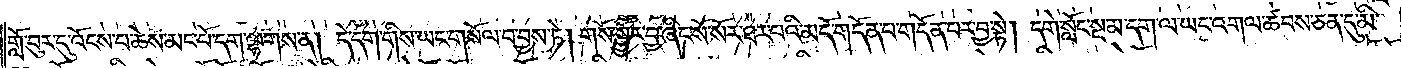གློ་བུར་དུ་འོངས་པ་ཆེས་མང་པོ་དག་ལྷགས་ན། དེ་དག་གིས་ཡང་གསོལ་བ་བྱས་ཏེ། གསོ་སྦྱོང་བྱ་ཞིང་སོ་སོར་ཐར་པའི་མདོ་གདོན་པ་གདོན་བར་བྱ་སྟེ། དགེ་སློང་སྔ་མ་དག་ལ་ཡང་འགལ་ཚབས་ཅན་དུ་མི་
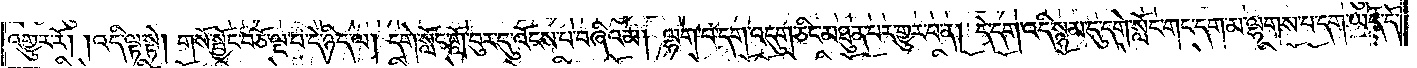འགྱུར་རོ། །འདི་ལྟ་སྟེ། གསོ་སྦྱོང་བཅོ་ལྔ་བ་དེ་ཉིད་ལ། དགེ་སློང་གློ་བུར་དུ་འོངས་པ་བཞིའམ། ལྷག་པ་དག་འདུག་ཅིང་མཐུན་པར་གྱུར་པ་ན། དེ་དག་འདི་སྙམ་དུ་དགེ་སློང་གང་དག་མ་ལྷགས་པ་དག་ཡོད་དོ་
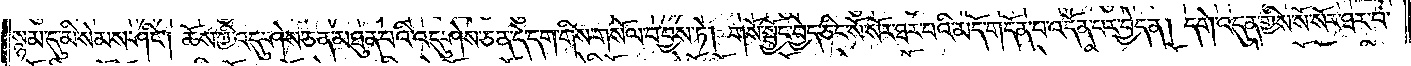སྙམ་དུ་མི་སེམས་ཤིང༌། ཆོས་ཀྱི་འདུ་ཤེས་ཅན་མཐུན་པའི་འདུ་ཤེས་ཅན་དེ་དག་གིས་གསོལ་བ་བྱས་ཏེ། གསོ་སྦྱོང་བྱེད་ཅིང་སོ་སོར་ཐར་པའི་མདོ་གདོན་པ་འདོན་པར་བྱེད་ན། དགེ་འདུན་གྱིས་སོ་སོར་ཐར་པ་
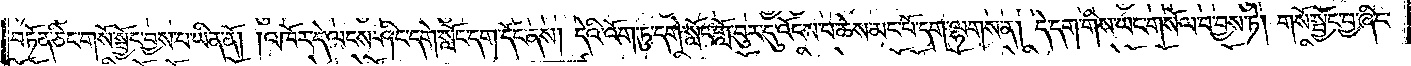བཏོན་ཅིང་གསོ་སྦྱོང་བྱས་པ་ཡིན་ནོ། །འཁོར་དེ་ལངས་ཤིང་དགེ་སློང་དག་དོང་ནས། དེའི་འོག་ཏུ་དགེ་སློང་གློ་བུར་དུ་འོངས་པ་ཆེས་མང་པོ་དག་ལྷགས་ན། དེ་དག་གིས་ཡང་གསོལ་བ་བྱས་ཏེ། གསོ་སྦྱོང་བྱ་ཞིང་
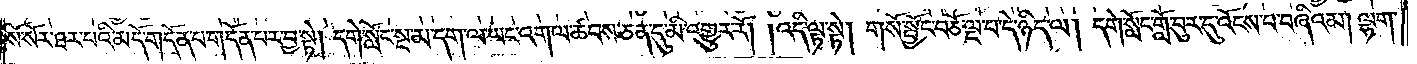སོ་སོར་ཐར་པའི་མདོ་གདོན་པ་གདོན་པར་བྱ་སྟེ། དགེ་སློང་སྔ་མ་དག་ལ་ཡང་འགལ་ཚབས་ཅན་དུ་མི་འགྱུར་རོ། །འདི་ལྟ་སྟེ། གསོ་སྦྱོང་བཅོ་ལྔ་པ་དེ་ཉིད་ལ། དགེ་སློང་གློ་བུར་དུ་འོངས་པ་བཞིའམ། ལྷག་
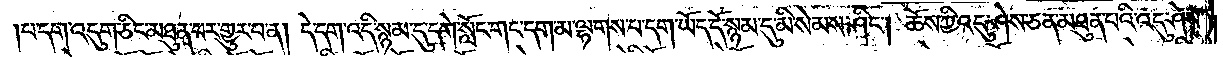པ་དག་འདུག་ཅིང་མཐུན་པར་གྱུར་པ་ན། དེ་དག་འདི་སྙམ་དུ་དགེ་སློང་གང་དག་མ་ལྷགས་པ་དག་ཡོད་དོ་སྙམ་དུ་མི་སེམས་ཤིང༌། ཆོས་ཀྱི་འདུ་ཤེས་ཅན་མཐུན་པའི་འདུ་ཤེས
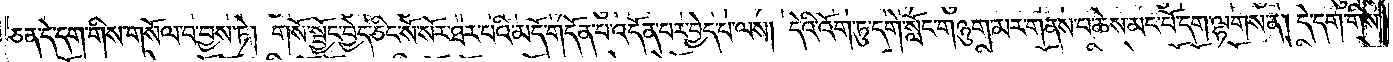ཅན་དེ་དག་གིས་གསོལ་བ་བྱས་ཏེ། གསོ་སྦྱོང་བྱེད་ཅིང་སོ་སོར་ཐར་པའི་མདོ་གདོན་པ་འདོན་པར་བྱེད་པ་ལས། དེའི་འོག་ཏུ་དགེ་སློང་གཉུག་མར་གནས་པ་ཆེས་མང་པོ་དག་ལྷགས་ན། དེ་དག་གིས་
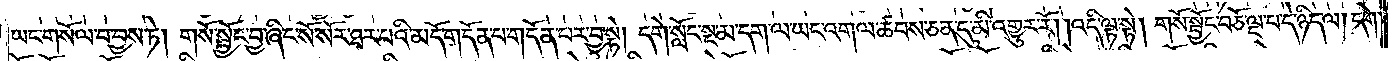ཡང་གསོལ་བ་བྱས་ཏེ། གསོ་སྦྱོང་བྱ་ཞིང་སོ་སོར་ཐར་པའི་མདོ་གདོན་པ་གདོན་པར་བྱ་སྟེ། དགེ་སློང་སྔ་མ་དག་ལ་ཡང་འགལ་ཚབས་ཅན་དུ་མི་འགྱུར་རོ། །འདི་ལྟ་སྟེ། གསོ་སྦྱོང་བཅོ་ལྔ་པ་དེ་ཉིད་ལ། དགེ་
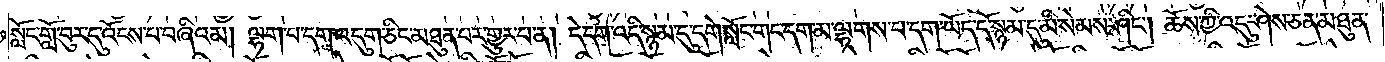སློང་གློ་བུར་དུ་འོངས་པ་བཞིའམ། ལྷག་པ་དག་འདུག་ཅིང་མཐུན་པར་གྱུར་པ་ན། དེ་དག་འདི་སྙམ་དུ་དགེ་སློང་གང་དག་མ་ལྷགས་པ་དག་ཡོད་དོ་སྙམ་དུ་མི་སེམས་ཤིང༌། ཆོས་ཀྱི་འདུ་ཤེས་ཅན་མཐུན་
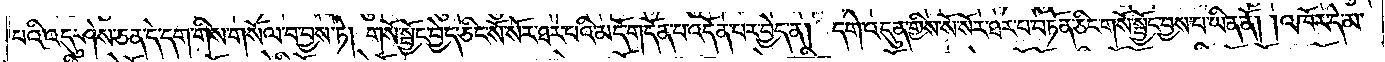པའི་འདུ་ཤེས་ཅན་དེ་དག་གིས་གསོལ་བ་བྱས་ཏེ། གསོ་སྦྱོང་བྱེད་ཅིང་སོ་སོར་ཐར་པའི་མདོ་གདོན་པ་འདོན་པར་བྱེད་ན། དགེ་འདུན་གྱིས་སོ་སོར་ཐར་པ་བཏོན་ཅིང་གསོ་སྦྱོང་བྱས་པ་ཡིན་ནོ། །འཁོར་དེ་མ་
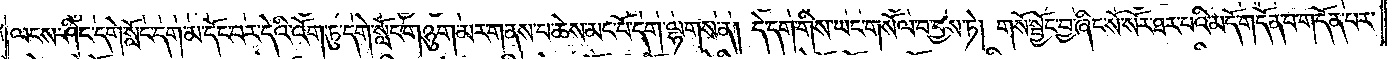ལངས་ཤིང་དགེ་སློང་དག་མ་དོང་བར་དེའི་འོག་ཏུ་དགེ་སློང་གཉུག་མར་གནས་པ་ཆེས་མང་པོ་དག་ལྷགས་ན། དེ་དག་གིས་ཡང་གསོལ་བ་བྱས་ཏེ། གསོ་སྦྱོང་བྱ་ཞིང་སོ་སོར་ཐར་པའི་མདོ་གདོན་པ་གདོན་པར་
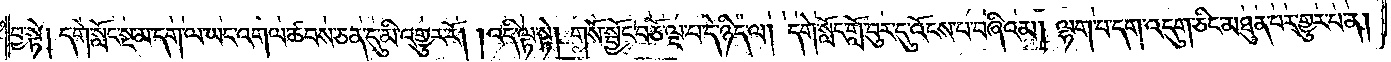བྱ་སྟེ། དགེ་སློང་སྔ་མ་དག་ལ་ཡང་འགལ་ཚབས་ཅན་དུ་མི་འགྱུར་རོ། །འདི་ལྟ་སྟེ། གསོ་སྦྱོང་བཅོ་ལྔ་པ་དེ་ཉིད་ལ། དགེ་སློང་གློ་བུར་དུ་འོངས་པ་བཞིའམ། ལྷག་པ་དག་འདུག་ཅིང་མཐུན་པར་གྱུར་པ་ན།
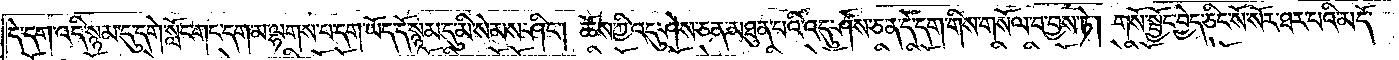དེ་དག་འདི་སྙམ་དུ་དགེ་སློང་གང་དག་མ་ལྷགས་པ་དག་ཡོད་དོ་སྙམ་དུ་མི་སེམས་ཤིང༌། ཆོས་ཀྱི་འདུ་ཤེས་ཅན་མཐུན་པའི་འདུ་ཤེས་ཅན་དེ་དག་གིས་གསོལ་བ་བྱས་ཏེ། གསོ་སྦྱོང་བྱེད་ཅིང་སོ་སོར་ཐར་པའི་མདོ་
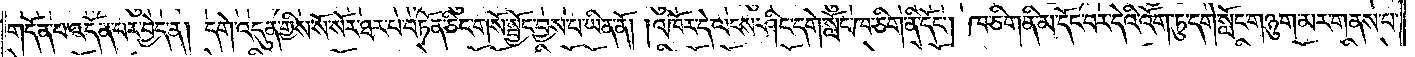གདོན་པ་འདོན་པར་བྱེད་ན། དགེ་འདུན་གྱིས་སོ་སོར་ཐར་པ་བཏོན་ཅིང་གསོ་སྦྱོང་བྱས་པ་ཡིན་ནོ། །འཁོར་དེ་ལངས་ཤིང་དགེ་སློང་ཁ་ཅིག་ནི་དོང༌། ཁ་ཅིག་ནི་མ་དོང་བར་དེའི་འོག་ཏུ་དགེ་སློང་གཉུག་མར་གནས་པ་
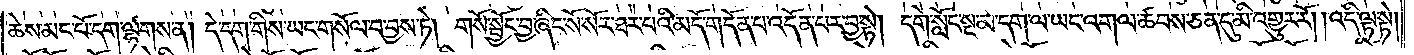ཆེས་མང་པོ་དག་ལྷགས་ན། དེ་དག་གིས་ཡང་གསོལ་བ་བྱས་ཏེ། གསོ་སྦྱོང་བྱ་ཞིང་སོ་སོར་ཐར་པའི་མདོ་གདོན་པ་འདོན་པར་བྱ་སྟེ། དགེ་སློང་སྔ་མ་དག་ལ་ཡང་འགལ་ཚབས་ཅན་དུ་མི་འགྱུར་རོ། །འདི་ལྟ་སྟེ།
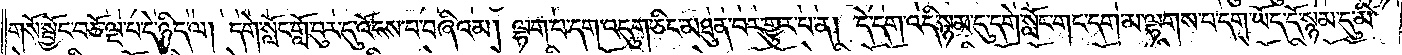གསོ་སྦྱོང་བཅོ་ལྔ་པ་དེ་ཉིད་ལ། དགེ་སློང་གློ་བུར་དུ་འོངས་པ་བཞིའམ། ལྷག་པ་དག་འདུག་ཅིང་མཐུན་པར་གྱུར་པ་ན། དེ་དག་འདི་སྙམ་དུ་དགེ་སློང་གང་དག་མ་ལྷགས་པ་དག་ཡོད་དོ་སྙམ་དུ་མི་
